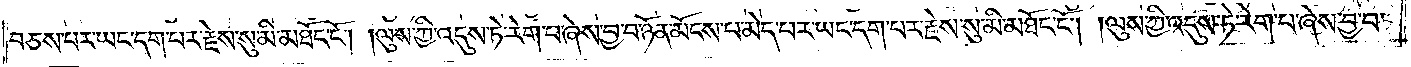བཅས་པར་ཡང་དག་པར་རྗེས་སུ་མི་མཐོང་ངོ༌། །ལུས་ཀྱི་འདུས་ཏེ་རེག་པ་ཞེས་བྱ་བ་ཉོན་མོངས་པ་མེད་པར་ཡང་དག་པར་རྗེས་སུ་མི་མཐོང་ངོ༌། །ལུས་ཀྱི་འདུས་ཏེ་རེག་པ་ཞེས་བྱ་བ་
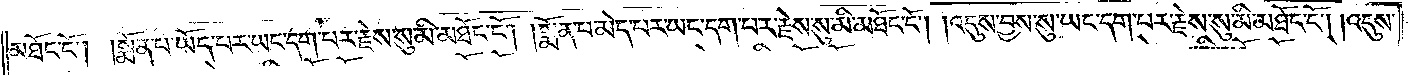མཐོང་ངོ༌། །སྨོན་པ་ཡོད་པར་ཡང་དག་པར་རྗེས་སུ་མི་མཐོང་ངོ༌། །སྨོན་པ་མེད་པར་ཡང་དག་པར་རྗེས་སུ་མི་མཐོང་ངོ༌། །འདུས་བྱས་སུ་ཡང་དག་པར་རྗེས་སུ་མི་མཐོང་ངོ༌། །འདུས་
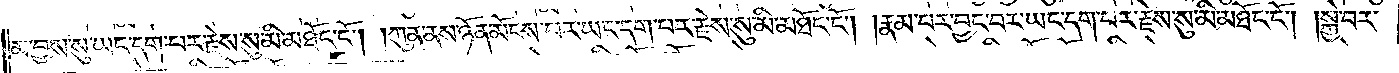མ་བྱས་སུ་ཡང་དག་པར་རྗེས་སུ་མི་མཐོང་ངོ༌། །ཀུན་ནས་ཉོན་མོངས་པར་ཡང་དག་པར་རྗེས་སུ་མི་མཐོང་ངོ༌། །རྣམ་པར་བྱང་བར་ཡང་དག་པར་རྗེས་སུ་མི་མཐོང་ངོ༌། །སྐྱེ་བར་
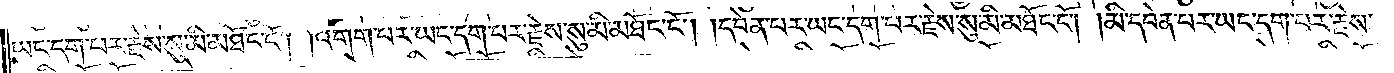ཡང་དག་པར་རྗེས་སུ་མི་མཐོང་ངོ༌། །འགག་པར་ཡང་དག་པར་རྗེས་སུ་མི་མཐོང་ངོ༌། །དབེན་པར་ཡང་དག་པར་རྗེས་སུ་མི་མཐོང་ངོ༌། །མི་དབེན་པར་ཡང་དག་པར་རྗེས་
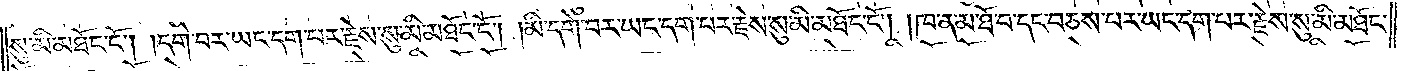སུ་མི་མཐོང་ངོ༌། །དགེ་བར་ཡང་དག་པར་རྗེས་སུ་མི་མཐོང་ངོ༌། །མི་དགེ་བར་ཡང་དག་པར་རྗེས་སུ་མི་མཐོང་ངོ༌། །ཁ་ན་མ་ཐོ་བ་དང་བཅས་པར་ཡང་དག་པར་རྗེས་སུ་མི་མཐོང་
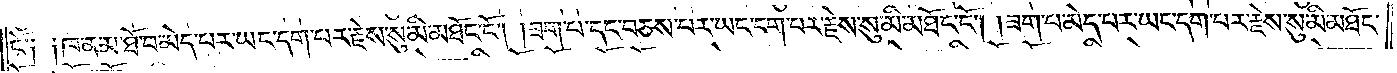ངོ༑ ༑ཁ་ན་མ་ཐོ་བ་མེད་པར་ཡང་དག་པར་རྗེས་སུ་མི་མཐོང་ངོ༌། །ཟག་པ་དང་བཅས་པར་ཡང་དག་པར་རྗེས་སུ་མི་མཐོང་ངོ༌། །ཟག་པ་མེད་པར་ཡང་དག་པར་རྗེས་སུ་མི་མཐོང་
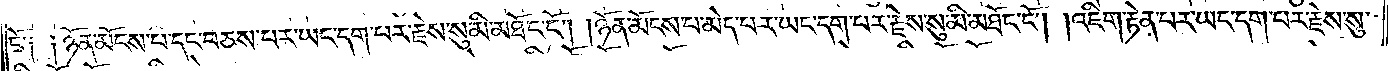ངོ༑ ༑ཉོན་མོངས་པ་དང་བཅས་པར་ཡང་དག་པར་རྗེས་སུ་མི་མཐོང་ངོ༌། །ཉོན་མོངས་པ་མེད་པར་ཡང་དག་པར་རྗེས་སུ་མི་མཐོང་ངོ༌། །འཇིག་རྟེན་པར་ཡང་དག་པར་རྗེས་སུ་
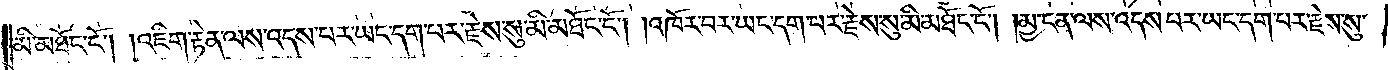མི་མཐོང་ངོ༌། །འཇིག་རྟེན་ལས་འདས་པར་ཡང་དག་པར་རྗེས་སུ་མི་མཐོང་ངོ༌། །འཁོར་བར་ཡང་དག་པར་རྗེས་སུ་མི་མཐོང་ངོ༌། །མྱ་ངན་ལས་འདས་པར་ཡང་དག་པར་རྗེས་སུ་
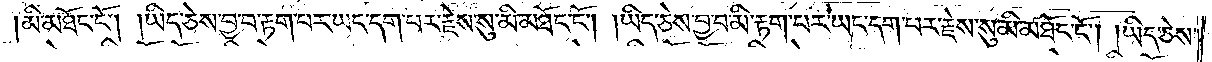མི་མཐོང་ངོ༌། །ཡིད་ཅེས་བྱ་བ་རྟག་པར་ཡང་དག་པར་རྗེས་སུ་མི་མཐོང་ངོ༌། །ཡིད་ཅེས་བྱ་བ་མི་རྟག་པར་ཡང་དག་པར་རྗེས་སུ་མི་མཐོང་ངོ༌། །ཡིད་ཅེས་
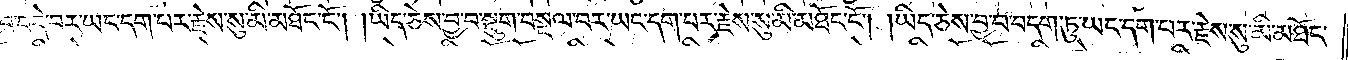བ་བདེ་བར་ཡང་དག་པར་རྗེས་སུ་མི་མཐོང་ངོ༌། །ཡིད་ཅེས་བྱ་བ་སྡུག་བསྔལ་བར་ཡང་དག་པར་རྗེས་སུ་མི་མཐོང་ངོ༌། །ཡིད་ཅེས་བྱ་བ་བདག་ཏུ་ཡང་དག་པར་རྗེས་སུ་མི་མཐོང་
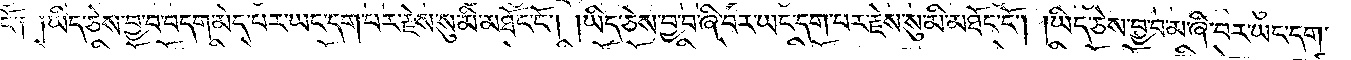ངོ༑ ༑ཡིད་ཅེས་བྱ་བ་བདག་མེད་པར་ཡང་དག་པར་རྗེས་སུ་མི་མཐོང་ངོ༌། །ཡིད་ཅེས་བྱ་བ་ཞི་བར་ཡང་དག་པར་རྗེས་སུ་མི་མཐོང་ངོ༌། །ཡིད་ཅེས་བྱ་བ་མ་ཞི་བར་ཡང་དག་
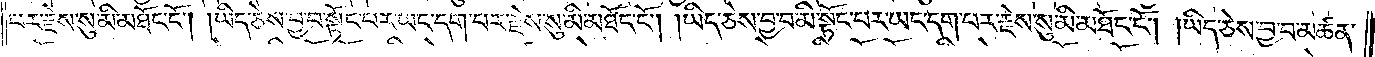པར་རྗེས་སུ་མི་མཐོང་ངོ༌། །ཡིད་ཅེས་བྱ་བ་སྟོང་པར་ཡང་དག་པར་རྗེས་སུ་མི་མཐོང་ངོ༌། །ཡིད་ཅེས་བྱ་བ་མི་སྟོང་པར་ཡང་དག་པར་རྗེས་སུ་མི་མཐོང་ངོ༌། །ཡིད་ཅེས་བྱ་བ་མཚན་
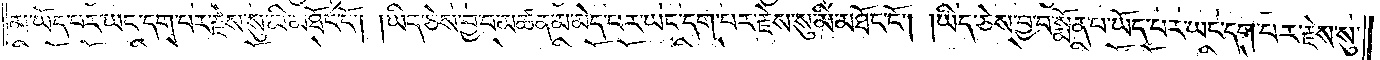མ་ཡོད་པར་ཡང་དག་པར་རྗེས་སུ་མི་མཐོང་ངོ༌། །ཡིད་ཅེས་བྱ་བ་མཚན་མ་མེད་པར་ཡང་དག་པར་རྗེས་སུ་མི་མཐོང་ངོ༌། །ཡིད་ཅེས་བྱ་བ་སྨོན་པ་ཡོད་པར་ཡང་དག་པར་རྗེས་སུ་
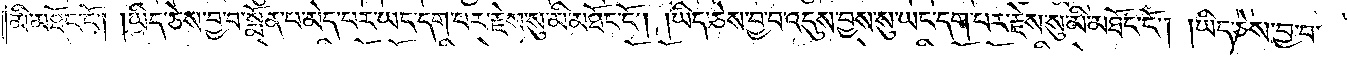མི་མཐོང་ངོ༌། །ཡིད་ཅེས་བྱ་བ་སྨོན་པ་མེད་པར་ཡང་དག་པར་རྗེས་སུ་མི་མཐོང་ངོ༌། །ཡིད་ཅེས་བྱ་བ་འདུས་བྱས་སུ་ཡང་དག་པར་རྗེས་སུ་མི་མཐོང་ངོ༌། །ཡིད་ཅེས་བྱ་བ་
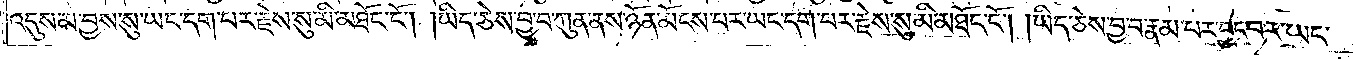འདུས་མ་བྱས་སུ་ཡང་དག་པར་རྗེས་སུ་མི་མཐོང་ངོ༌། །ཡིད་ཅེས་བྱ་བ་ཀུན་ནས་ཉོན་མོངས་པར་ཡང་དག་པར་རྗེས་སུ་མི་མཐོང་ངོ༌། །ཡིད་ཅེས་བྱ་བ་རྣམ་པར་བྱང་བར་ཡང་
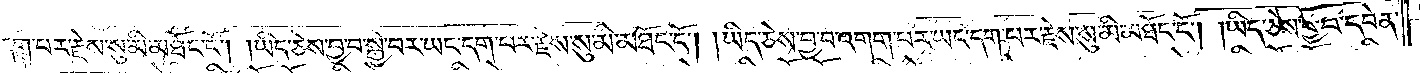དག་པར་རྗེས་སུ་མི་མཐོང་ངོ༌། །ཡིད་ཅེས་བྱ་བ་སྐྱེ་བར་ཡང་དག་པར་རྗེས་སུ་མི་མཐོང་ངོ༌། །ཡིད་ཅེས་བྱ་བ་འགག་པར་ཡང་དག་པར་རྗེས་སུ་མི་མཐོང་ངོ༌། །ཡིད་ཅེས་བྱ་བ་དབེན་
